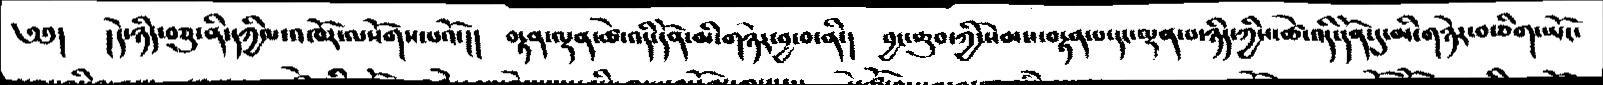༄༅།  །དེ་ཉིད་བཅུ་ནི་དཀྱིལ་འཁོར་ལསོགས་པའོ་།།  བརྟན་ལྡན་ཚེ་འདི་དོན་མི་གཉེར་བྱ་བ་ནི་།  བྱང་ཆུབ་ཀྱི་སེམས་བརྟན་པ་དང་ལྡན་པ་ཉིད་ཀྱིས་ཚེ་འདི་དོན་དུ་མི་གཉེར་བ་ཅིག་ཡོང་
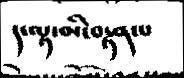ད་ལྟ་མི་བརྟན་པ
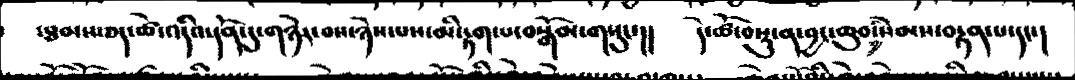ཐམས་ཅད་ཚེ་འདའི་དོན་དུ་གཉེར་བས་ཉེས་པས་མི་རྟག་པ་བསྒོམ་གསུང་།། དེ་ཚོ་བསྡུ་ན་བྱང་ཆུབ་ཀྱི་སེམས་བརྟན་པ་དང་།
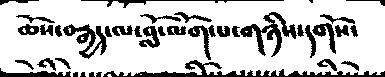ཆོས་བརྒྱད་ལ་བློ་ལོག་པ་གཉིས་དགོས་
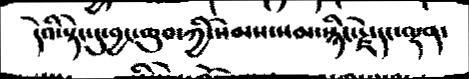དེའི་སྟེང་དུ་བྱང་ཆུབ་ཀྱི་སེམས་སམ་སྙིང་རྗེ་དང་ལྡན་
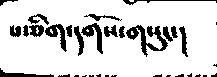པ་ཅིག་དགོས་གསུང་།
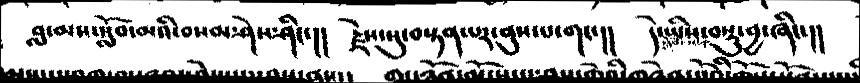བླ་མས་སློབ་མའི་བསམ་ཤེས་ཤིང་།།  རྗེས་སུ་བསྟན་པར་ནུས་པ་གང་།།  དེ་ཡིས་བསྡུ་བྱ་ཞིང་།།
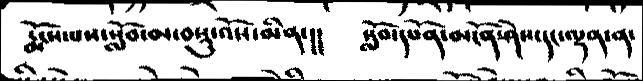རྨོངས་པས་སློབ་མ་བསྡུ་འོས་མིན་།།  སློབ་དཔོན་མངོན་ཤེས་དང་ལྡན་ན་
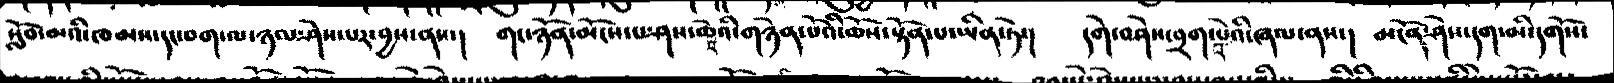སློབ་མའི་ལཁམས་དང་བག་ལ་ཉལ་ཤེས་པར་བྱས་ནས་།  གང་ཉོན་མོངས་པ་ཤས་ཆེའི་གཉེན་པོའི་ཆོས་སྟོན་པ་ཡིན་ཏེ་།  དགེ་བཤེས་གྲག་པེའི་ཞལ་ནས་། མངོན་ཤེས་དག་མི་དགོས་
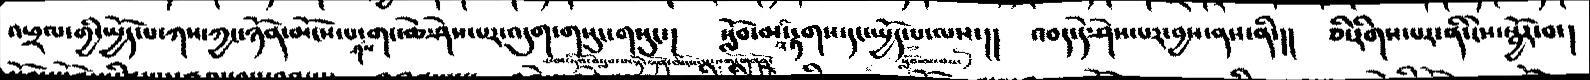འཕྲལ་གྱི་སྤྱོད་པ་ཀས་ཀྱང་ཉོན་མོངས་པ་གང་ཆེ་ཤེས་པར་འདུག་གསུང་གསུང་།  སློབ་མའི་རྟགས་དང་སྤྱོད་པ་ལས་།།  འབད་དེ་ཤེས་པར་བྱས་ནས་ནི་།། ཅི་རིགས་པར་ནི་ངེས་སྦྱོར་བ་།
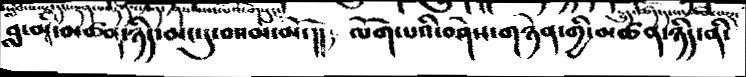བླ་མའི་མཚན་ཉིད་མང་དུ་བསམ་མོ་།།  ལོག་པའི་བཤེས་གཉེན་གྱི་མཚན་ཉིད་ནི་
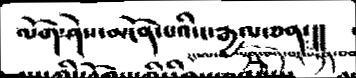ལོག་ཤེས་མངོན་པའི་ང་རྒྱལ་ཅན་།།
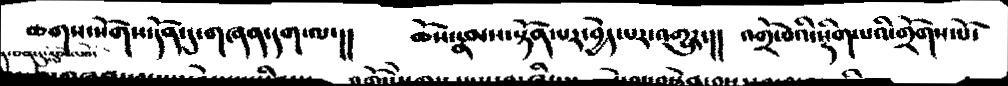ཆགས་སོགས་དོན་དུ་གཞན་དག་ལ་།།  ཆོས་རྣམས་སྟོན་པར་བྱེད་པར་འགྱུར་།།  འགྲོ་བའི་སྡིག་པའི་གྲོགས་པོ་
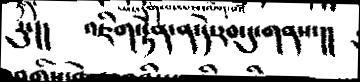རུ་།།  འཇིག་རྟེན་ན་དེ་རབ་དུ་གནས་།།
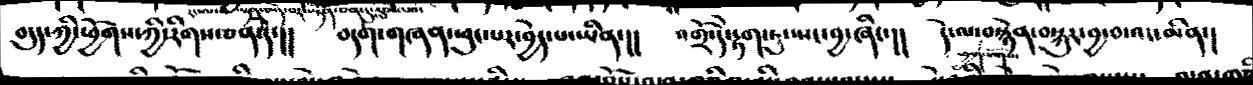བདུད་ཀྱི་ཕྱོགས་ཀྱི་རིགས་ཅན་དེ་།།. བདག་གཞན་ཕུང་པར་བྱེད་པ་ཡིན་།།  འགྲོ་དེ་རྟག་ཏུ་སྤང་བྱ་ཞིང་།།  དེ་ལ་བསྙེན་བསྐུར་བྱ་བ་འང་མིན་།
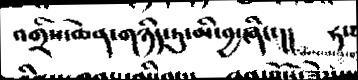འགྲིས་ཆེན་གཉིད་ཏུ་མི་བྱ་ཞིང་།།  ཧ་
